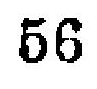56
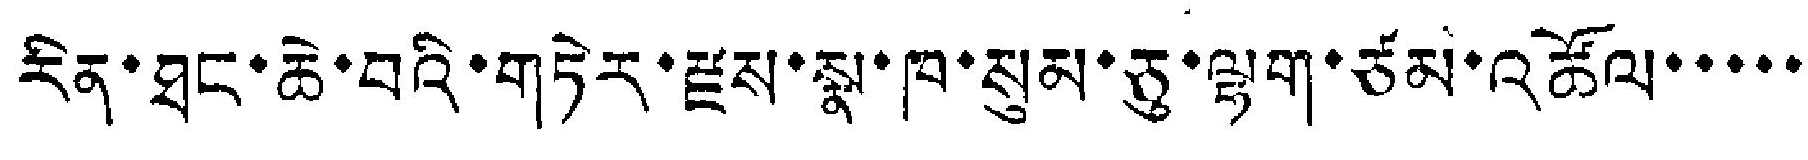རིན་ཐང་ཆེ་བའི་གཏེར་རྫས་སྣ་ཁ་སུམ་ཅུ་ལྷག་ཙམ་འཚོལ་་་་་
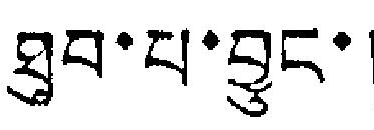ཐུབ་པ་བྱུང་།
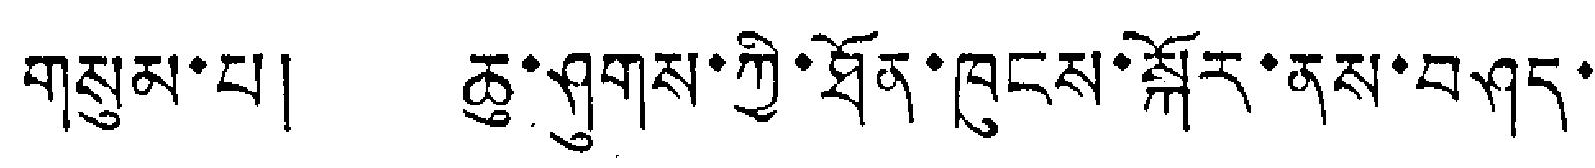གསུམ་པ། ཆུ་ཤུགས་ཀྱི་ཐོན་ཁུངས་སྐོར་ནས་བཤད་
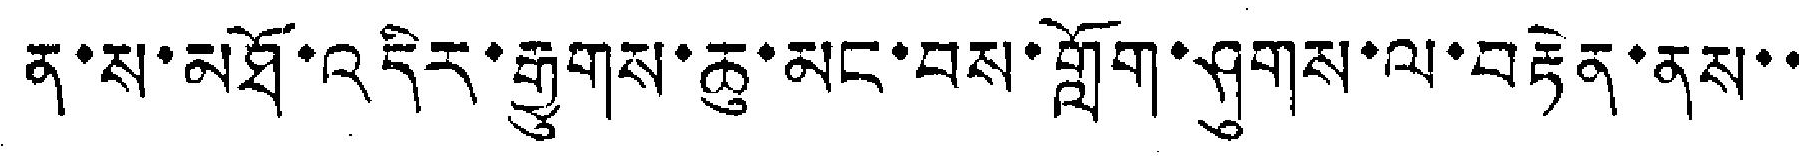ན་ས་མཐོ་འདིར་རྒྱུགས་ཆུ་མང་བས་གློག་ཤུགས་ལ་བརྟེན་ནས་་
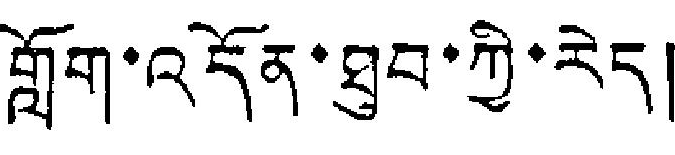གློག་འདོན་ཐུབ་ཀྱི་རེད།
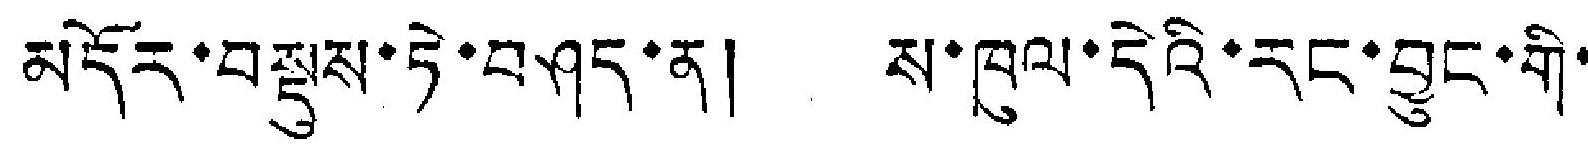མདོར་བསྡུས་ཏེ་བཤད་ན། ས་ཁུལ་དེའི་རང་བྱུང་གི་
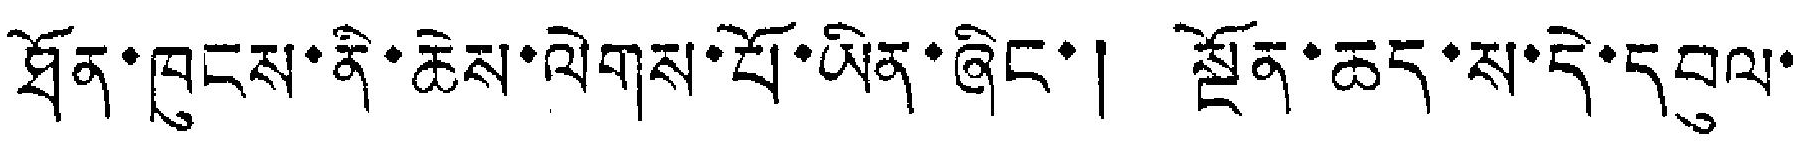ཐོན་ཁུངས་ནི་ཆེས་ལེགས་པོ་ཡིན་ཞིང་། སྔོན་ཆད་ས་དེ་དབུལ་
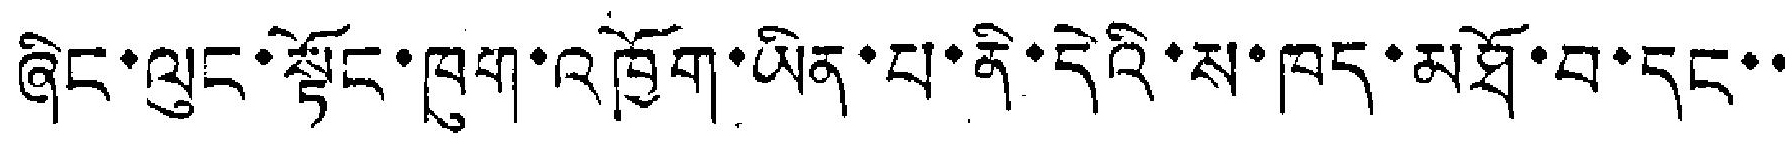ཞིང་ལུང་སྟོང་ཁུག་འཁྱོག་ཡིན་པ་ནི་དེའི་ས་ཁད་མཐོ་བ་དང་་
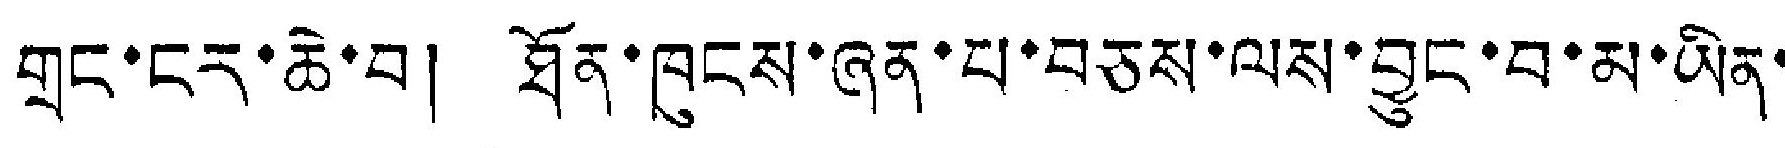གྲང་ངར་ཆེ་བ། ཐོན་ཁུངས་ཞན་པ་བཅས་ལས་བྱུང་བ་མ་ཡིན་
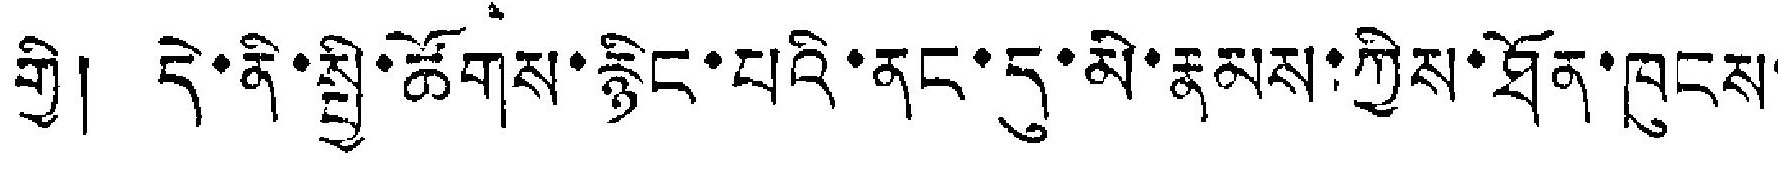གྱི། དེ་ནི་སྤྱི་ཚོགས་རྙིང་པའི་ནང་དུ་མི་རྣམས་ཀྱིས་ཐོན་ཁུངས་
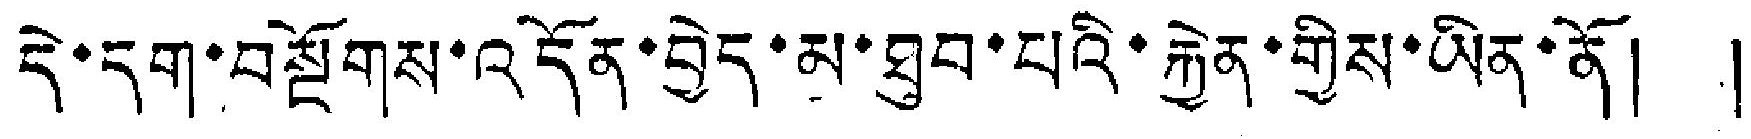དེ་དག་བསྔོགས་འདོན་བྱེད་མ་ཐུབ་པའི་རྐྱེན་གྱིས་ཡིན་ནོ། །
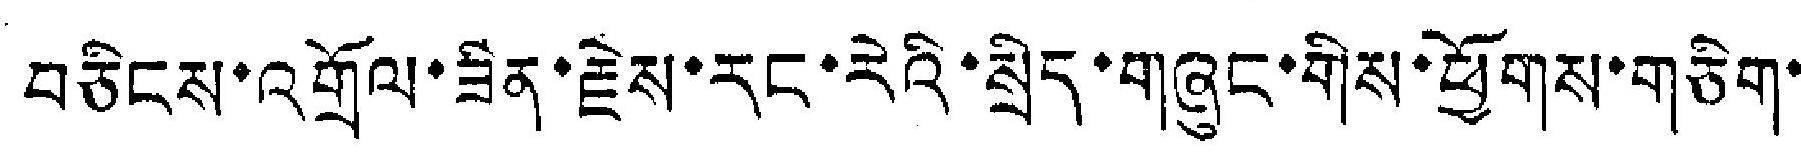བཅིངས་འགྲོལ་ཟིན་རྗེས་རང་རེའི་སྲིད་གཞུང་གིས་ཕྱོགས་གཅིག་
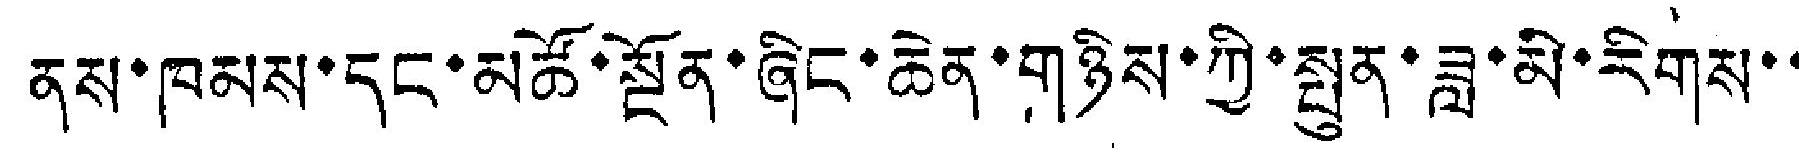ནས་ཁམས་དང་མཚོ་སྔོན་ཞིང་ཆེན་གཉིས་ཀྱི་སྤུན་ཟླ་མི་རིགས་་
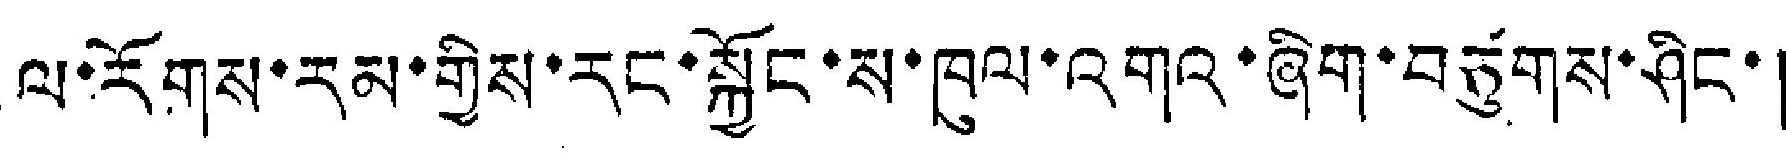ལ་རོགས་རམ་གྱིས་རང་སྐྱོང་ས་ཁལ་འགའ་ཞིག་བཙུགས་ཤིང་།
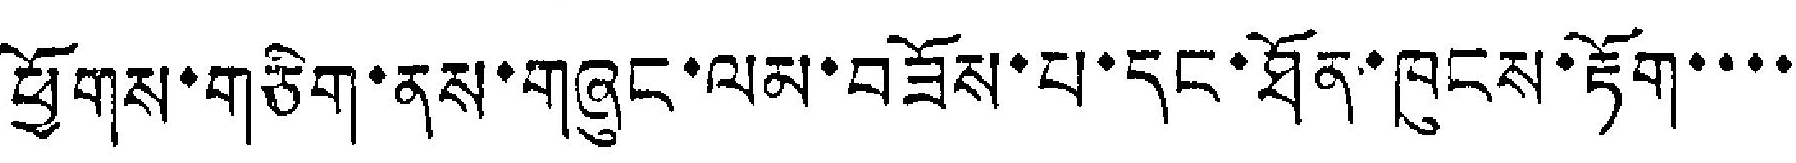ཕྱོགས་གཅིག་ནས་གཞུང་ལམ་བཟོས་པ་དང་ཐོན་ཁུངས་རྟོག་་་་
